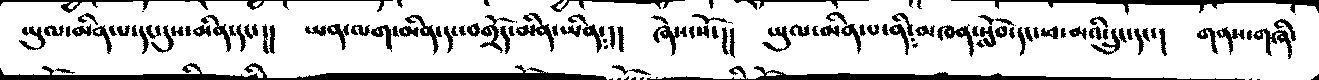ཡུལ་མིན་པ་དང་དུས་མིན་དང་།།  ཡན་ལག་མིན་དང་བགྲོད་མིན་ཡིན༴།།  ཞེས་སོ་།།  ཡུལ་མིན་པ་ནི༴མཁན་སློབ་དང་ཕ་མའི་དྲུང་དང་།  གནས་གཞི་
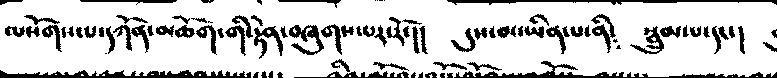ལསོགས་པ་དཀོན་མཆོག་གི་རྟེན་བཞུགས་པར་རོ་།།  དུས་མ་ཡིན་པ་ནི༴  སྦྲུམ་པ་དང་།
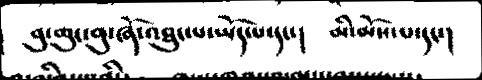བུ་ཆུང་བུ་ཞོ་འཐུང་པ་ཡོད་པ་དང་།     མི་མོས་པ་དང་།
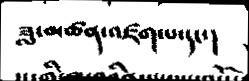ཟླ་མཚན་འཛག་པ་དང་།
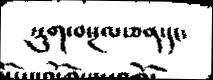སྡུག་བསྔལ་ཅན་དང་
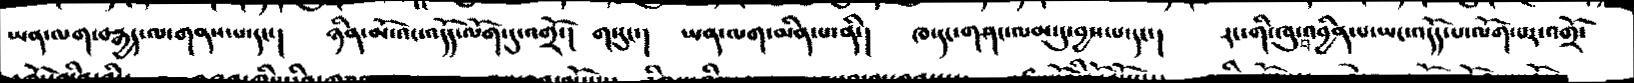ཡན་ལག་བརྒྱད་ལ་གནས་པ་དང་།    ཉིན་མོ་འདོད་ལོག་དུ་འགྲོ་།  གསུང་།  ཡན་ལག་མིན་པ་ནི་།    ཁ་དང་གཤང་ལམ་དུ་བྱས་པ་དང་།   རང་གི་ཁུ་བ་འབྱིན་པ་ཡང་འདོད་པ་ལོག་པར་འགྲོ་
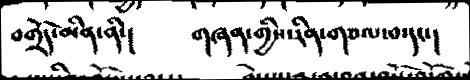བགྲོད་མིན་ནི་།    གཞན་གྱིས་རིན་གཅལ་བ་དང་།
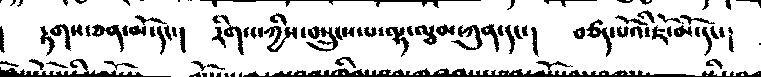།    རྟགས་ཅན་མོ་དང་།    རིགས་ཀྱིས་བསྲུངས་པ་ལྷ་ལྕམ་ཀུན་དང་།     བཙད་པོའི་ཇོ་མོ་དང་།
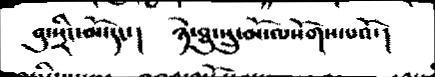བུ་སྲིང་མོ་དང་།    ཉེ་ཐུང་སྲུ་མོ་ལསོགས་པའོ་།
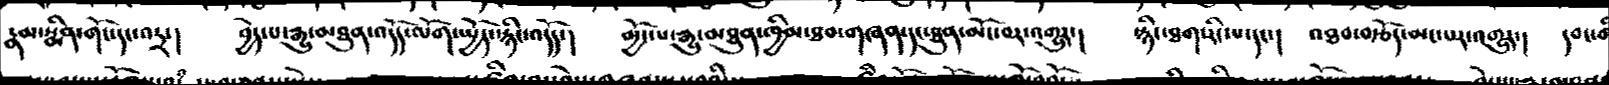རྣམ་སྨིན་གོ་དང་འཏྲ་།    བྱེད་པ་རྒྱུ་མཐུན་འདོད་ལོག་ཡྱོད་སྙིང་འདོད་།    མྱོང་པ་རྒྱུ་མཐུན་ཁྱིམ་ཐབ་གཞན་དང་ཐུན་མོང་བར་འགྱུར་།   སྙིང་ཐག་རིང་པ་དང་།   འཐབ་བརྩོད་མང་པར་འགྱུར་།  དབང་གི
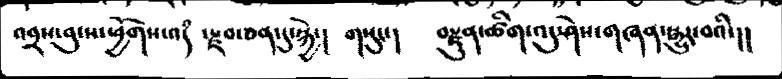འབྲས་བུ་ས་ཕྱོགས་འདཾ ་རྫབ་ཅན་དུ་སྐྱེ་།  གསུང་།  བརྫུན་ཚིག་འདུ་ཤེས་གཞན་སྒྱུར་བའི་།།
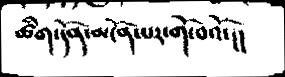ཚིག་དོན་མངོན་པར་གོ་བའོ་།།
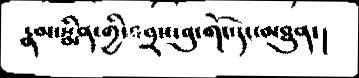རྣམ་སྨིན་གྱི་འབྲས་བུ་གོང་དང་མཐུན་།
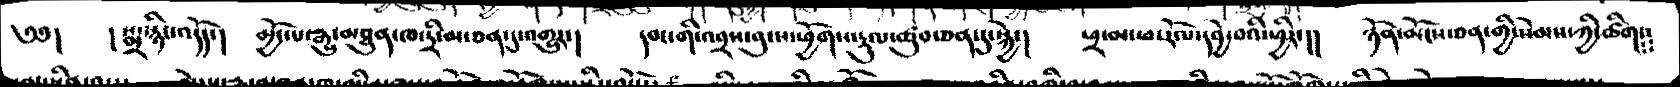༅༅།    ། སྨྲ་སྙིང་འདོད་།   མྱོང་པ་རྒྱུ་མཐུན་ཁ་ཏྲི་མ་ཅན་དུ་འགྱུར་།   དབང་གི་འབྲས་བུ་ས་ཕྱོགས་རུལ་ཚུབ་དུ་སྐྱེ་།   ཕྲ་མ་ཕ་རོལ་དབྱེ་བའི་ཕྱིར་།།    ཉོན་མོངས་ཅན་གྱི་སེམས་ཀྱི་ཚིག༴༴
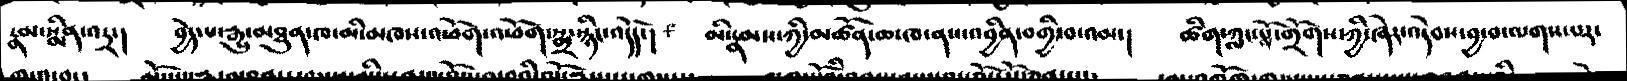རྣམ་སྨིན་འཏྲ་།    བྱེད་པ་རྒྱུ་མཐུན་ཁ་མི་མཁས་འཕོག་འཕོག་སྨྲ་སྙིང་འདོད་།      མི་རྣམས་ཀྱི་མཚན་ཆ་ཁ་ནས་འབྱིན་བགྱི་བ་འམ་།  ཚིག་ཀླང་པོས་གྲོགས་ཀྱི་ཞེར་འདེབས་བྱ་བ་ལགས་པར་
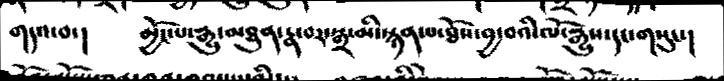གདའ་བ་།  མྱོང་པ་རྒྱུ་མཐུན་རྣ་བར་སྒྲ་མི་སྙན་པ་ཐོས་བྱ་བའི་ལོ་རྒྱུས་དང་གསུང་།
